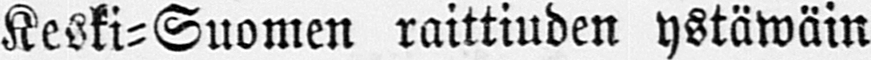Keski-Suomen raittiuden ystäwäin
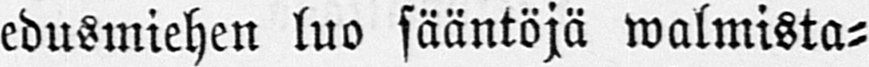edusmiehen luo sääntöjä walmista-
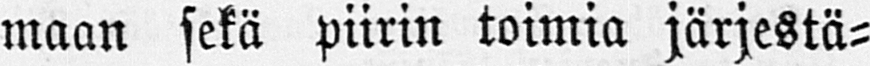maan sekä piirin toimia järjestä-
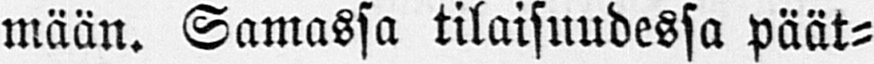mään. Samassa tilaisuudessa päät-
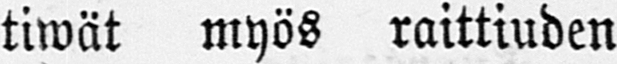täwät myös raittiuden ystäwät
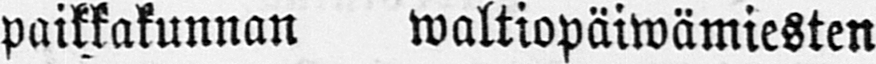paikkakunnan waltiopäiwämiesten
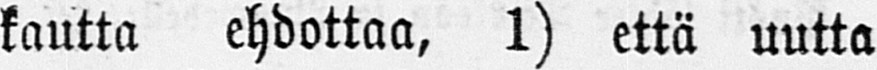kautta ehdottaa, 1) että uutta
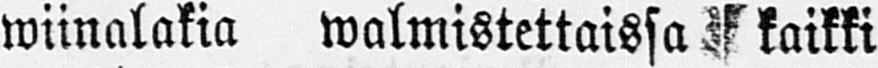wiinalakia walmistettaissa kaikki
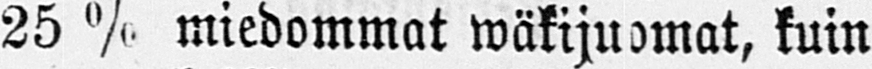25 % miedommat wäkijuomat, kuin
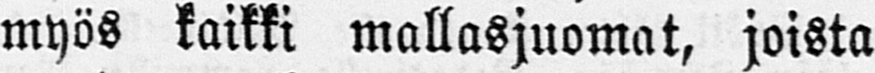myös kaikki mallasjuomat, joista
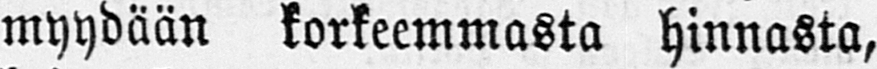myydään korkeemmasta hinnasta,
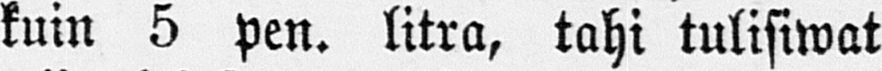kuin 5 pen. litra, tahi tulisiwat
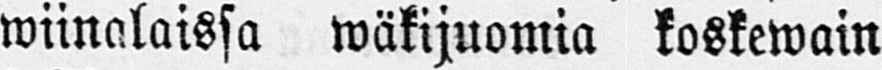wiinalaissa wäkijuomia koskewain
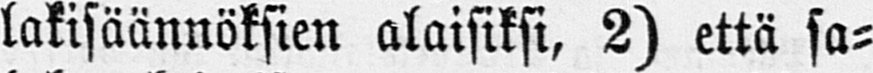lakisäännöksien alaisiksi, 2) että sa-
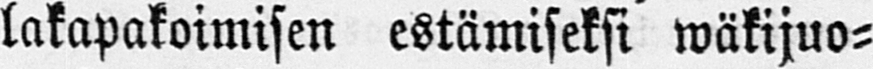lakapakoimisen estämiseksi wäkijuo-
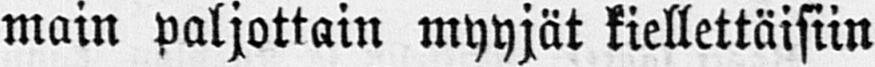main paljottain myyjät kiellettäisiin
